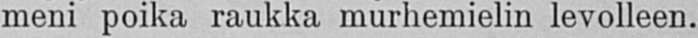meni poika raukka murhemielin levolleen.
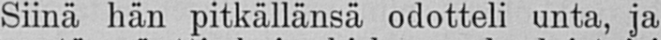Siinä hän pitkällänsä odotteli unta, ja
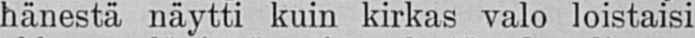hänestä näytti kuin kirkas valo loistaisi
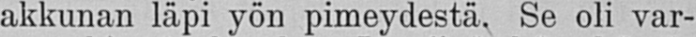akkunan läpi yön pimeydestä. Se oli var-
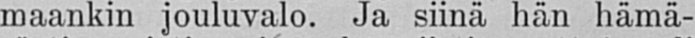maankin jouluvalo, Ja siinä hän hämä-
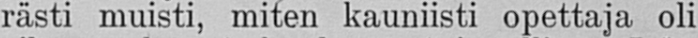rästi muisti, miten kauniisti opettaja oli
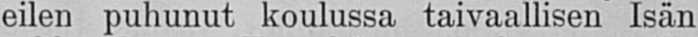eilen puhunut koulussa taivaallisen Isän
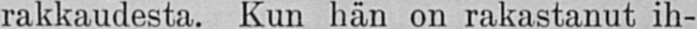rakkaudesta. Kun hän on rakastanut ih-
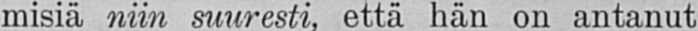misiä niin että hän on antanut
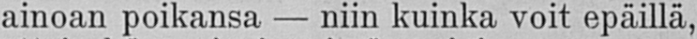ainoan poikansa — niin kuinka voit epäillä,
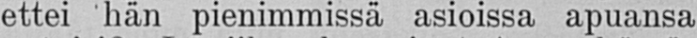ettei hän pienimmissä asioissa apuansa
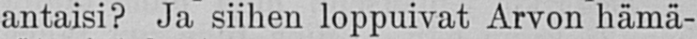antaisi? Ja siihen loppuivat Arvon hämä-
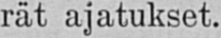rät ajatukset.
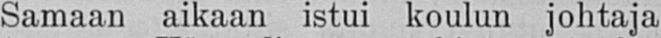Samaan aikaan istui koulun johtaja
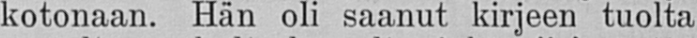kotonaan. Hän oli saanut kirjeen tuolta
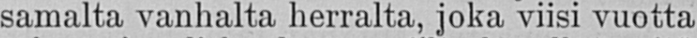samalta vanhalta herralta, joka viisi vuotta
